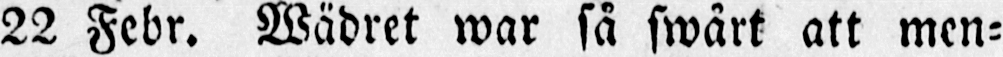22 Febr. Wädret war så swårt att men-
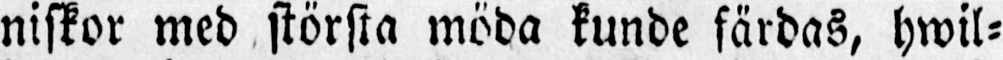niskor med största möda kunde färdas, hwil-
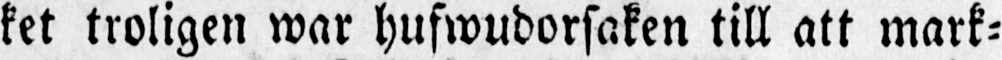ket troligen war hufwudorsaken till att mark-
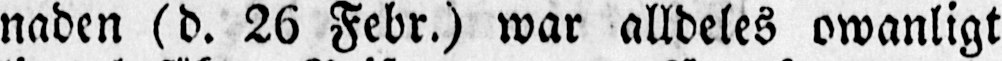naden (d. 26 Febr.) war alldeles owanligt
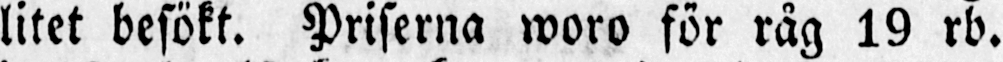litet besökt. Priserna woro för råg 19 rb.
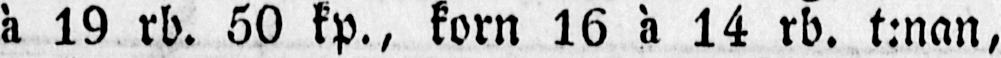à 19 rb. 50 kp., korn 16 à 14 rb. t:nan,
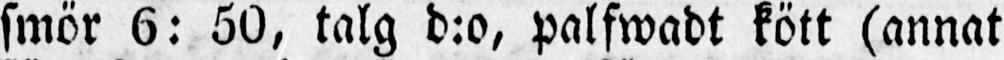smör 6: 50, talg d:o, palfwadt kött (annat
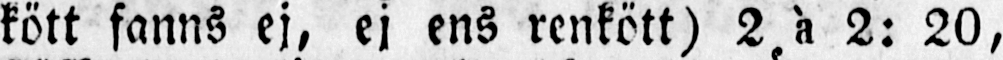kött fanns ej, ej ens renkött) 2 à 2: 20,
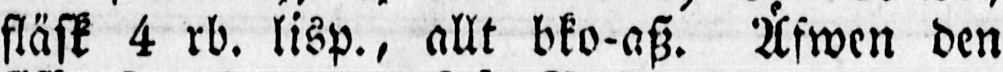fläsk 4 rb. lisp., allt bko-asz. Äfwen den
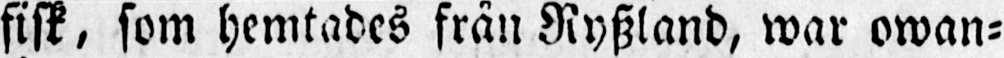fisk, som hemtades från Ryszland, war owan-
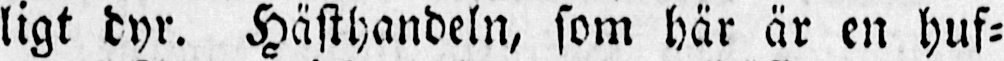ligt dyr. Hästhandeln, som här är en huf-
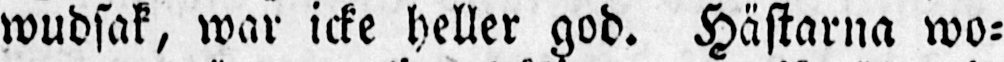wudsak, war icke heller god. Hästarna wo-
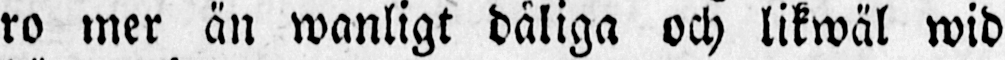ro mer än wanligt dåliga och likwäl wid
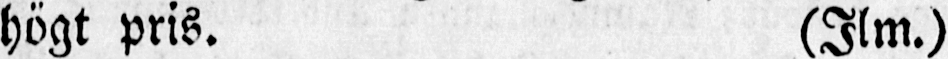högt pris. (Ilm.)
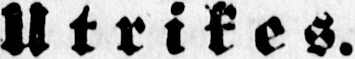Utrikes.
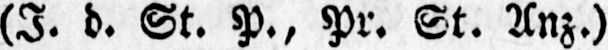(I. d. St. P., Pr. St. Anz.)
